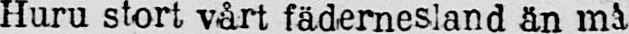Huru stort vårt fädernesland än må
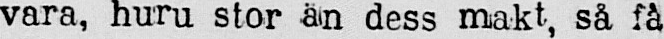vara, huru stor än dess makt, så få
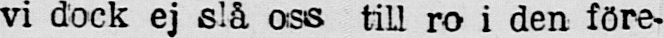vi dock ej slå oss till ro i den före-
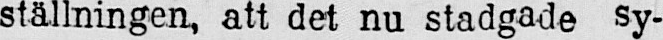ställningen, att det nu stadgade sy-
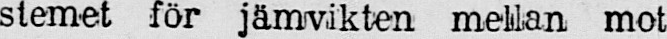stemet för jämvikten mellan mot
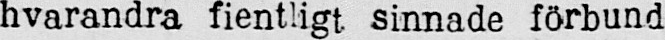hvarandra fientligt sinnade förbund
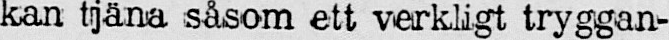kan tjäna såsom ett verkligt tryggan-
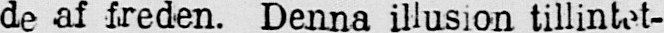de af freden. Denna illusion tillintet-
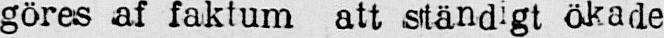göres af faktum att ständigt ökade
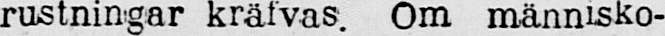rustningar kräfvas. Om människo-
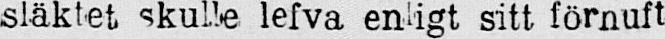släktet skulle lefva enligt sitt förnuft
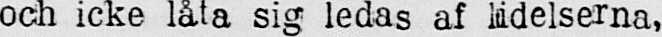och icke låta sig ledas af lidelserna,
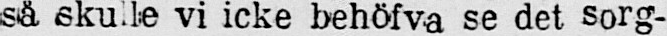så skulle vi icke behöfva se det sorg-
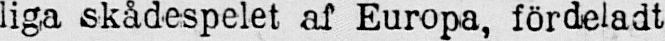liga skådespelet af Europa, fördeladt
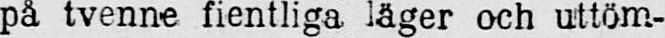på tvenne fientliga läger och uttöm-
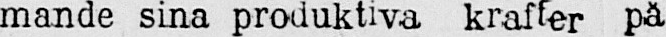mande sina produktiva krafter pä
